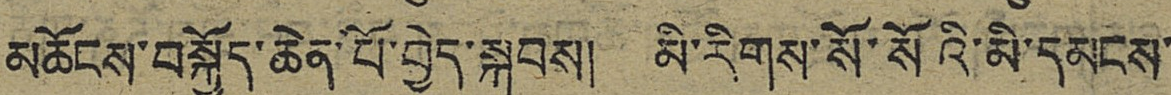མཆོངས་བསྐྱོད་ཆེན་པོ་བྱེད་སྐབས། མི་རིགས་སོ་སོའི་མི་དམངས་
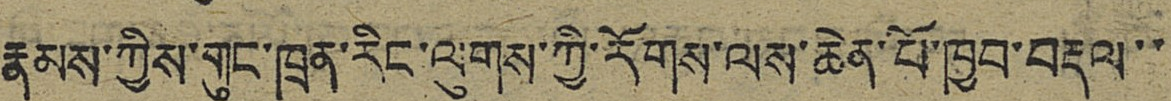རྣམས་ཀྱིས་གུང་ཁྲན་རིང་ལུགས་ཀྱི་རོགས་ལས་ཆེན་པོ་ཁྱབ་བརྡལ་་
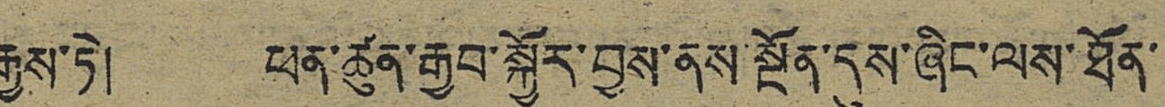རྒྱས་ཏེ། ཕན་ཚུན་རྒྱབ་སྐྱོར་བྱས་ནས་སྔོན་དུས་ཞིང་ལས་ཐོན་
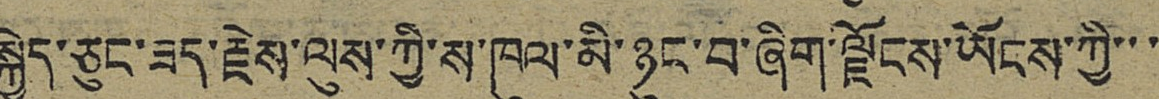སྐྱེད་ཅུང་ཟད་རྗེས་ལུས་ཀྱི་ས་ཁུལ་མི་ཉུང་བ་ཞིག་ལྗོངས་ཡོངས་ཀྱི་་་
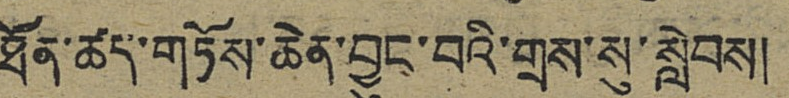ཐོན་ཚད་གཏོས་ཆེན་བྱུང་བའི་གྲས་སུ་སླེབས།
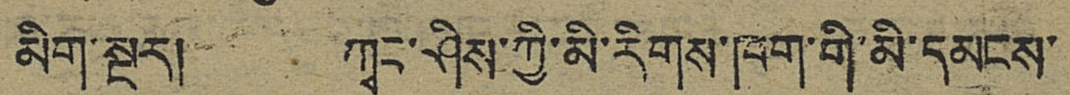མིག་སྔར། ཀྭང་ཤིས་ཀྱི་མི་རིགས་ཁག་གི་མི་དམངས་
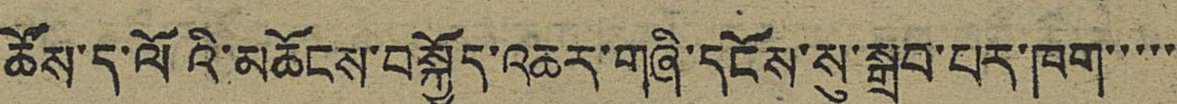ཚོས་ད་ལོའི་མཆོངས་བསྐྱོད་འཆར་གཞི་དངོས་སུ་སྒྲུབ་པར་ཁག་་་་་
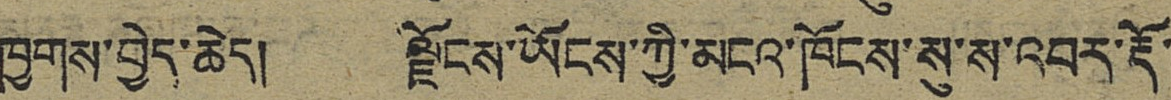ཁྱགས་བྱེད་ཆེད། ལྗོངས་ཡོངས་ཀྱི་མངའ་ཁོངས་སུ་ས་འབར་རྡོ་
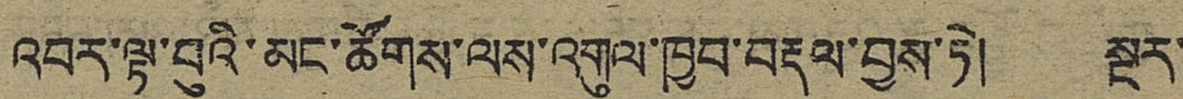འབར་ལྟ་བུའི་མང་ཚོགས་ལས་འགུལ་ཁྱབ་བརྡ་བྱས་ཏེ། སྔར་
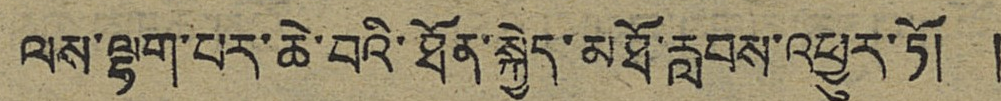ལས་ལྷག་པར་ཆེ་བའི་ཐོན་སྐྱེད་མཐོ་རླབས་འཕྱུར་ཏོ། །
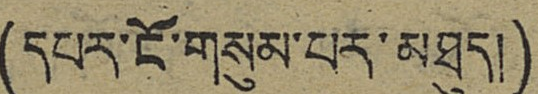(དཔར་ངོ་གསུམ་པར་མཐུད།)
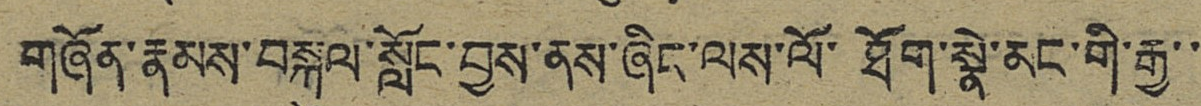གཞོན་རྣམས་བསྐུལ་སློང་བྱས་ནས་ཞིང་ལས་ལོ་ཐོག་སྣེ་མང་གི་རྒྱ་་
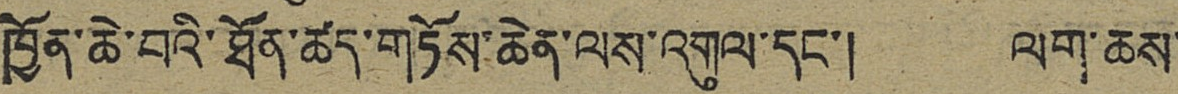ཁྱོན་ཆེ་བའི་ཐོན་ཚད་གཏོས་ཆེན་ལས་འགུལ་དང་། ལག་ཆས་
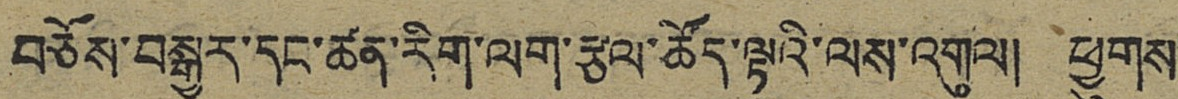བཅོས་བསྒྱུར་དང་ཚན་རིག་ལག་རྩལ་ཚོད་ལྟའི་ལས་འགུལ། ཕྱུགས་
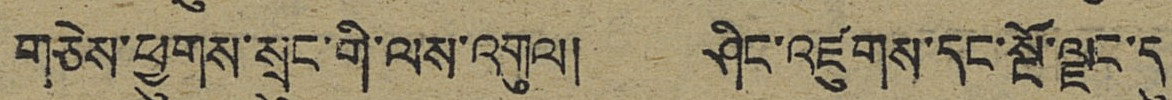གཅེས་ཕྱུགས་སྲུང་གི་ལས་འགུལ། ཤིང་འཛུགས་དང་སྔོ་ལྗང་དུ་
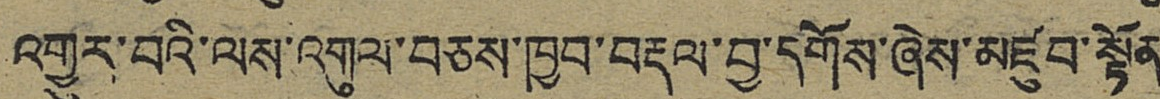འགྱུར་བའི་ལས་འགུལ་བཅས་ཁྱབ་བརྡལ་བྱ་དགོས་ཞེས་མཛུབ་སྟོན་
